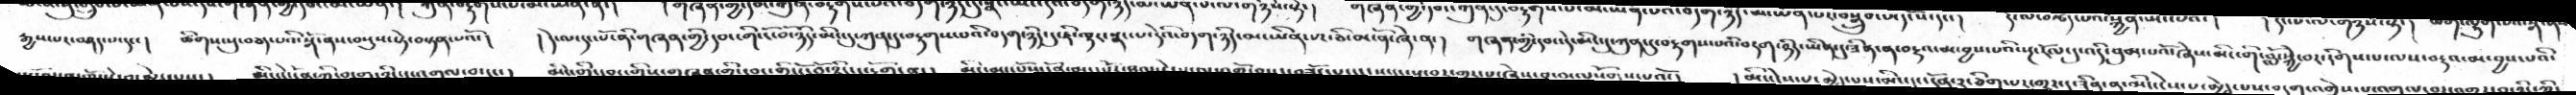རྒྱས་པར་བཤད་པ་དང་།   ཚིགས་སུ་བཅད་པའི་སྒོ་ནས་བསྡུས་སྟེ་བསྟན་པའོ་།   །དེ་ལ་དང་པོ་ནི་གཞན་གྱི་དབང་གི་ངོ་བོ་ཉིད་མིང་དུ་ཀུན་དུ་བརྟགས་པའི་བདག་ཉིད་དུ་ཇི་ལྟར་སྣང་པ་དེའི་བདག་ཉིད་མ་ཡིན་པར་ཅི་མངོན་ཞེ་ན་།   གཞན་གྱི་དབང་དེ་མིང་དུ་ཀུན་དུ་བརྟགས་པའི་བདག་ཉིད་ཡིན་དུ་ཟིན་ན་བརྡའ་མ་བྱས་པའི་སྔ་རོལ་དུ་འདི་བུམ་པའོ་ཞེས་མིང་གི་བློ་སྐྱེ་བར་རིགས་པ་ལས་བརྡའ་མ་བྱས་པའི་
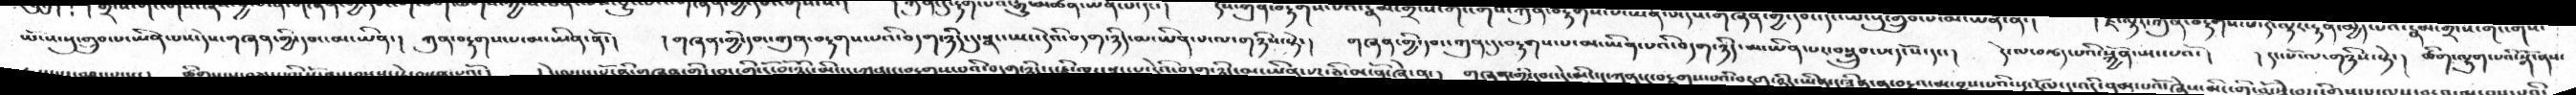ཡོངས་སུ་གྲུབ་པ་ཡིན་པས་དེས་གཞན་གྱི་དབང་མ་ཡིན་།   ཀུན་བརྟགས་པ་མ་ཡིན་ནོ་།    །གཞན་གྱི་དབང་ཀུན་བརྟགས་པའི་བདག་ཉིད་དུ་སྣང་ཡང་དེའི་བདག་ཉིད་མ་ཡིན་པ་ལ་གཉིས་སྟེ་།    གཞན་གྱི་དབང་ཀུན་དུ་བརྟགས་པ་མ་ཡིན་པའི་བདག་ཉིད་མ་ཡིན་པར་བསྒྲུབ་པ་དངོས་དང་།    དེ་ལ་བརྩད་པའི་སྐྱོན་སྤང་པའོ་།   ། དང་པོ་ལ་གཉིས་སྟེ་།   ཚིག་ལྷུག་པའི་སྒོ་ནས་
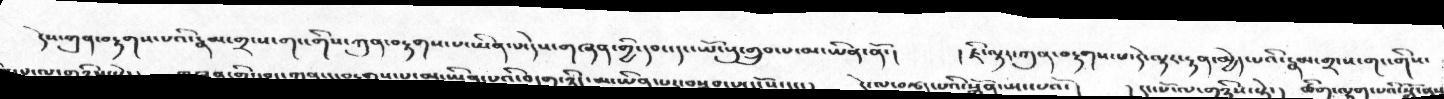དེས་ཀུན་བརྟགས་པའི་རྣམ་གྲངས་གང་གིས་ཀུན་བརྟགས་པ་ཡིན་པ་དེས་གཞན་གྱི་དབང་དང་ཡོངསུ་གྲུབ་པ་མ་ཡིན་ནོ་།     ། ཇི་ལྟར་ཀུན་བརྟགས་པ་དེ་ལྟར་རྟན་མྱེད་པའི་རྣམ་གྲངས་གང་གིས་
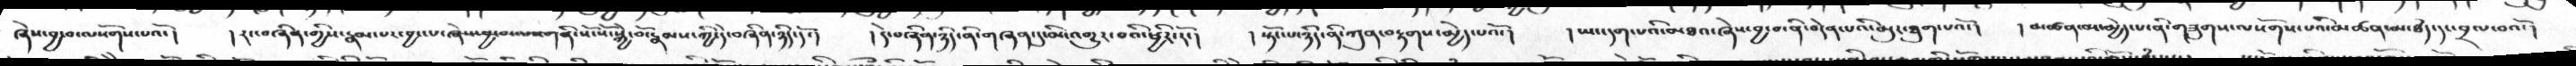ཞེས་བྱ་བ་ལསོགས་པའོ་།   །རང་བཞིན་གྱིས་རྣམ་པར་བྱང་པ་ཞེས་བྱ་བ་ལས་ནི་སོ་སོ་སྐྱེ་བོ་རྣམས་ཀྱི་དེ་བཞིན་ཉིད་དོ་།   །དེ་བཞིན་ཉིད་ནི་གཞན་དུ་མི་འགྱུར་བའི་ཕྱིར་རོ་།   ། སྟོང་པ་ཉིད་ནི་ཀུན་བརྟགས་མྱེད་པའོ་།   ། ཡང་དག་པའི་མཐའ་ཞེས་བྱ་བ་ནི་བདེན་པའི་མུར་ཐུག་པའོ་།   །མཚན་མ་མྱེད་པ་ནི་གཟུགས་ལསོགས་པའི་མཚན་མ་ཐཾད་དང་བྲལ་བའོ་།
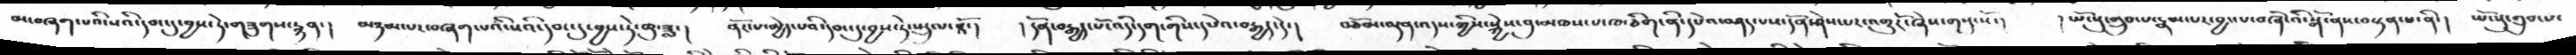མ་བཞག་པའི་སའི་དབང་དུ་བྱས་ཏེ་གཟུགས་རྙན་།   མཉམ་པར་བཞག་པའི་སའི་དབང་དུ་བྱས་ཏེ་ཆུ་ཟླ་།   ནོར་པ་མྱེད་པའི་དབང་དུ་བྱས་ཏེ་སྤྲུལ་ཏོ་།   །དོན་བརྒྱད་པོ་འདི་དག་གིས་དཔེའ་བརྒྱད་དེ་།   བཅོམ་ལྡན་འདས་ཀྱིས་སྐྱེས་བུ་མཁས་པ་ཁ་ཅིག་ནི་དཔེའ་བཤད་པས་དོན་ཤེས་པར་འགྱུརོ་ཞེས་གསུངསོ་།    ། ཡོངསུ་གྲུབ་པ་རྣམ་པར་བྱང་པ་བཞི་འི་སྒོ་ནས་བསྟན་པ་ནི་།   ཡོངསུ་གྲུབ་པ་
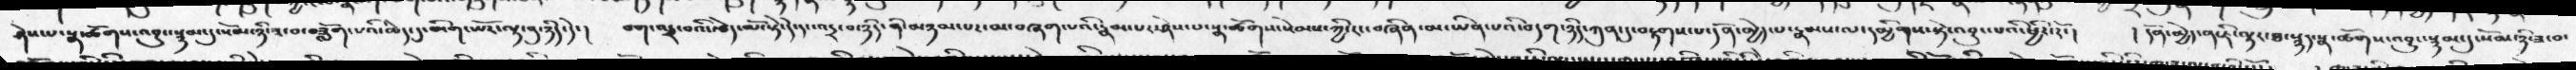ཤེས་པ་སྣ་ཚོགས་འབྱུང་སྙམ་དུ་སོམ་ཉི་ཟ་བ་བཟློག་པའི་ཆེད་དུ་མིག་ཡོར་ལྟ་བུ་ཉིད་དེ་།   བག་འདྲ་བའི་རྩེད་མོ་སྟེ་དེ་དང་འདྲ་བ་ཉིད་ནི་མཉམ་པར་མ་བཞག་པའི་རྣམ་པར་ཤེས་པ་སྣ་ཚོགས་སེམས་ཀྱི་རང་བཞིན་མ་ཡིན་པའི་བདག་ཉིད་ཀུན་དུ་བརྟགས་པ་དོན་མྱེད་པ་རྣམས་ལ་དམྱིགས་སྟེ་འབྱུང་པའི་ཕྱིར་རོ་།   ། དོན་མྱེད་ན་ཇི་ལྟར་ཐ་སྙད་སྣ་ཚོགས་འབྱུང་སྙམ་དུ་སོམ་ཉི་ཟ་བ་
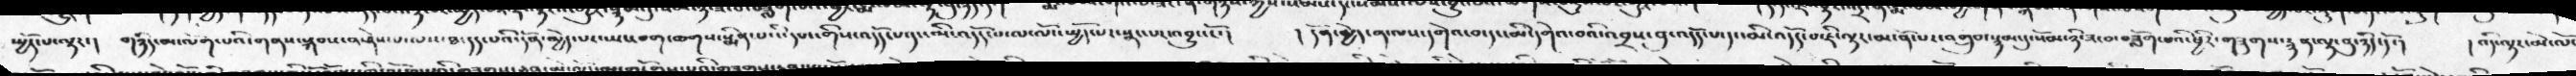སྤྱོད་པ་ལྟར་།  གཉིད་མ་ལོག་པའི་གནས་སྐབས་ན་ཤེས་པ་ལས་ཐ་དད་པའི་དོན་མྱེད་པར་ཡང་བག་ཆགས་སྨིན་པའི་དབང་གིས་འདོད་པ་དང་མི་འདོད་པ་ལ་ལོངས་སྤྱོད་པར་སྣང་པར་འབྱུང་ངོ་།   །དོན་མྱེད་ན་ལས་དགེའ་བ་དང་མི་དགེའ་བའི་འབྲས་བུ་འདོད་པ་དང་མི་འདོད་པ་ཇི་ལྟར་མངོན་པར་འགྲུབ་སྙམ་དུ་སོམ་ཉི་ཟ་བ་བཟློག་པའི་ཕྱིར་གཟུགས་རྙན་ལྟ་བུ་ཉིད་དོ་།   ། འདི་ལྟར་མེ་ལོང
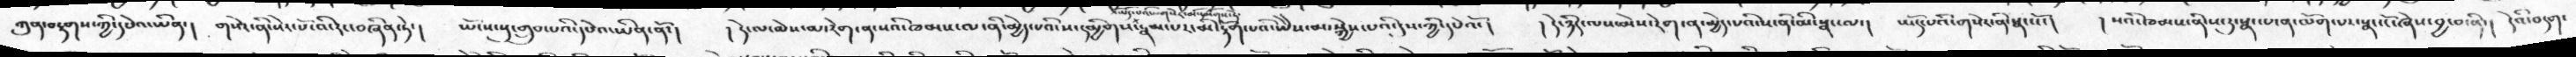ཀུན་བརྟགས་ཀྱི་དཔེའ་ཡིན་།  གསེར་ནི་སེར་པོ་འདི་རང་བཞིན་ཏེ་།  ཡོངས་སུ་གྲུབ་པའི་དཔེའ་ཡིན་ནོ་།   །དེ་ལ་མེས་མ་རེག་ན་སའི་ཁམས་ལ་ནི་མྱེད་པའི་ས་དམྱིགས་ཡོད་པའི་གསེར་མི་དམིགས་ཏེ་རྣམ་པར་མི་རྟོག་པའི་ཡཻས་མ་སྐྱེས་པའི་དུས་ཀྱི་དཔེའོ་།    ། དེ་ཉིད་ལས་མེས་རེག་ན་མྱེད་པའི་ས་ནི་མི་སྣང་ལ་།   ཡོད་པའི་གསེར་ནི་སྣང་ངོ་།   ། སའི་ཁམས་ནི་ས་རུ་སྣང་པ་ན་ལོག་པར་སྣང་ངོ་ཞེས་བྱ་བ་ནི་།   དེའི་བདག་
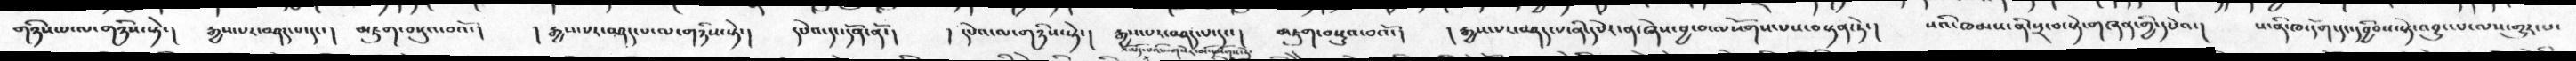གཉིས་པ་ལ་གཉིས་སྟེ་།   རྒྱས་པར་བཤད་པ་དང་།  མཇུག་བསྡུད་བའོ་།  ། རྒྱས་པར་བཤད་པ་ལ་གཉིས་སྟེ་།  དཔེའ་དང་དོན་ནོ་།  །དཔེའ་ལ་གཉིས་ཏེ་།  རྒྱས་པར་བཤད་པ་དང་།   མཇུག་བསྡུས་བའོ་།   ། རྒྱས་པར་བཤད་པ་ནི་དཔེར་ན་ཞེས་བྱ་བ་ལསོགས་པས་བསྟན་ཏེ་།    སའི་ཁམས་ནི་སྲ་བ་སྟེ་གཞན་གྱི་དཔེའ་།   ས་ནི་ཁ་དོག་དང་དབྱིབས་སྟེ་འབྱུང་པ་ལས་གྱུར་པ་
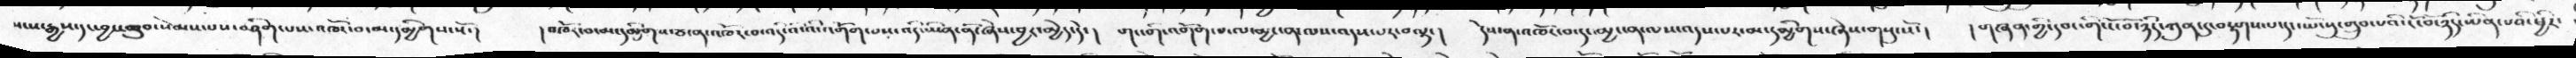སངས་རྒྱས་དང་བྱང་ཆུབ་སེམས་པས་བཤིག་པས་འཁོར་བ་མ་དམྱིགས་སོ་།  །འཁོར་བ་མ་དམྱིགས་ཙ་ན་འཁོར་བ་འདི་འི་འི་འགོག་པས་འདི་ཡིན་ནོ་ཞེས་བྱར་མྱེད་དེ་།   གང་གི་འགོག་པ་ལ་མྱ་ངན་ལས་འདས་པར་བལྟ་།   དེས་ན་འཁོར་བ་དང་མྱ་ངན་ལས་འདས་པར་མ་དམྱིགས་ཞེས་གསུངསོ་།   ། གཞན་གྱི་དབང་གི་ངོ་བོ་ཉིད་ཀུན་དུ་བརྟགས་པ་དང་ཡོངསུ་གྲུབ་པའི་ངོ་བོ་ཉིད་ཡིན་པའི་ཕྱིར་
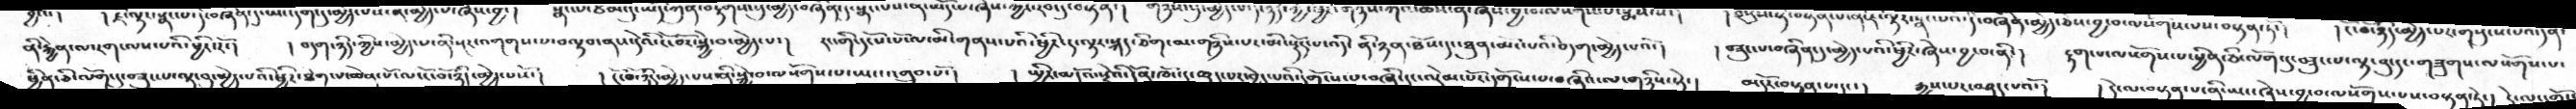ནི་རྐྱེན་ལ་རག་ལས་པའི་ཕྱིར་རོ་།    ། བདག་ཉིད་ཀྱིས་མྱེད་པ་ནི་སྔར་འགགས་པ་བལྟབ་ནས་དེའི་ངོ་བོར་སྐྱེ་བ་མྱེད་པ་།   རང་གི་དངོས་པོ་ལ་མི་གནས་པའི་ཕྱིར་ད་ལྟར་སྐད་ཅིག་མ་གཉིས་པར་མི་སྟོར་པ་འདི་ནི་ཉན་ཐོས་དང་ཐུན་མོང་པའི་བདག་མྱེད་པའོ་།    ། བཟུང་པ་བཞིན་དུ་མྱེད་པའི་ཕྱིར་ཞེས་བྱ་བ་ནི་།    རྟག་པ་ལསོགས་པ་ཕྱིན་ཅི་ལོག་དུ་བཟུང་པ་ལྟ་བུ་དང་གཟུགས་ལསོགས་པ་
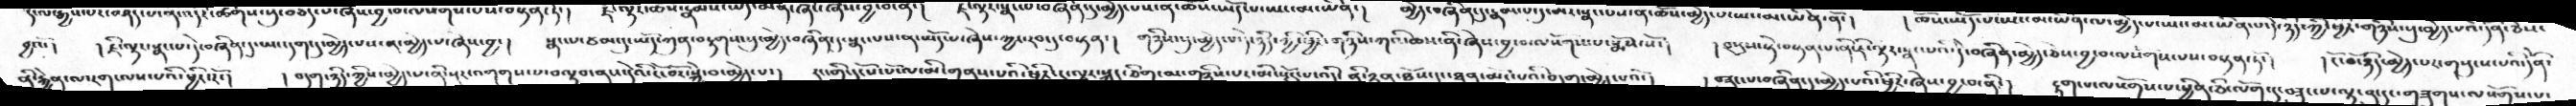བྱའོ་།   ། ཇི་ལྟར་སྣང་པ་དེ་བཞིན་དུ་ཡང་དག་དུ་མྱེད་པས་ན་མྱེད་པ་ཞེས་བྱ་།   སྣང་པ་ཙམ་དུ་ཡོད་ཀུན་བརྟགས་སུ་མྱེད་བཞིན་དུ་སྣང་པས་ན་ཡོད་པ་ཞེས་ཀྱང་རབ་དུ་བསྟན་།   གཉིས་སུ་མྱེད་པ་དེ་ཉིད་ཀྱི་ཕྱིར་གཉིས་ཀའི་ཆས་ནི་ཞེས་བྱ་ལསོགས་པ་སྨོས་སོ་།    །བསུས་སྟེ་བསྟན་པ་ནི་ཇི་ལྟར་སྣང་པའི་དེ་བཞིན་མྱེད་ཅེས་བྱ་བ་ལསོགས་པས་བསྟན་ཏོ་།    །ངོ་བོ་ཉིད་མྱེད་པར་གསུངས་པའི་དོན་
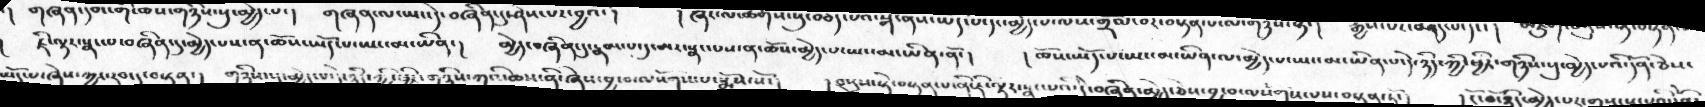།  ཇི་ལྟར་སྣང་པ་བཞིན་དུ་མྱེད་པས་ན་ཆོས་ཡོད་པ་ཡང་མ་ཡིན་།    མྱེད་བཞིན་དུ་རྣམ་པ་དུ་མར་སྣང་པས་ན་ཆོས་མེད་པ་ཡང་མ་ཡིན་ནོ་།    །ཆོས་ཡོད་པ་ཡང་མ་ཡིན་ལ་མྱེད་པ་ཡང་མ་ཡིན་པ་དེ་ཉིད་ཀྱི་ཕྱིར་གཉིས་སུ་མྱེད་པའི་དོན་ཅེས་
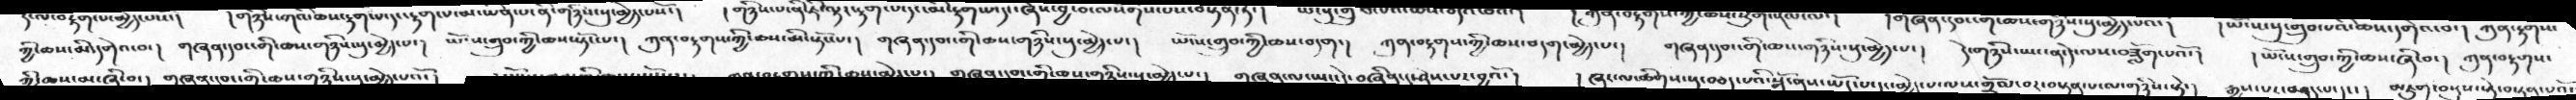ཀྱི་ཆས་མི་དགེའ་བ་།   གཞན་དབང་གི་ཆས་གཉིས་སུ་མྱེད་པ་།  ཡོངས་གྲུབ་ཀྱི་ཆས་སྟོང་པ་།   ཀུན་བརྟགས་ཀྱི་ཆས་མི་སྟོང་པ་།   གཞན་དབང་གི་ཆས་གཉིས་སུ་མྱེད་པ་།   ཡོངས་གྲུབ་ཀྱི་ཆས་བདག་།   ཀུན་བརྟགས་ཀྱི་ཆས་བདག་མྱེད་པ་།   གཞན་དབང་གི་ཆས་གཉིས་སུ་མྱེད་པ་།   དེ་གཉིས་ཡང་ན་དེ་ལས་བཟློག་པའོ་།    །ཡོངས་གྲུབ་ཀྱི་ཆས་ཞི་བ་།   ཀུན་བརྟགས་
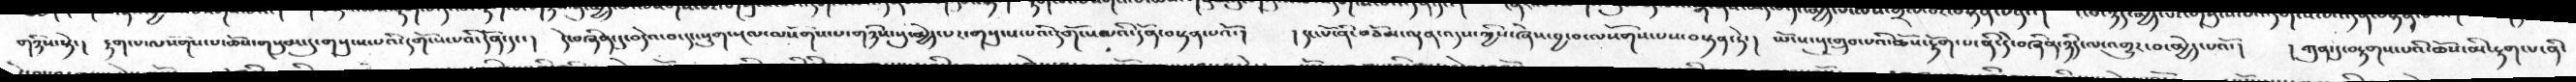གཉིས་སྟེ་།   རྟག་པ་ལསོགས་པ་ཆོས་གསུམ་དུ་གསུངས་པའི་དགོས་པའི་དོན་དང་།   དེ་བཞིན་དུ་བདེའ་བ་དང་སྡུག་སྔལ་ལསོགས་པ་གཉིས་སུ་མྱེད་པར་གསུངས་པའི་དགོངས་པའི་དོན་བསྟན་པའོ་།    ། དང་པོ་ནི་བཅོམ་ལྡན་འདས་ཀྱིས་ཞེས་བྱ་བ་ལསོགས་པས་བསྟན་ཏེ་།   ཡོངས་སུ་གྲུབ་པའི་ཆོས་རྟོག་པ་ནི་དེ་བཞིན་ཉིད་ལ་འགྱུར་བ་མྱེད་པའོ་།    ། ཀུན་དུ་བརྟགས་པའི་ཆོས་མི་རྟག་པ་ནི་
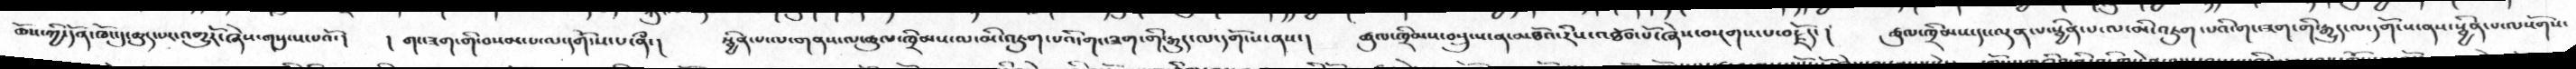ཆོས་ཀྱི་དོན་ཁོང་དུ་ཆུད་པར་འགྱུརོ་ཞེས་གསུངས་པའོ་།  །གང་ཟག་གི་བསམ་པ་ལ་དགོངས་པ་ནི་།  སྦྱིན་པ་ལ་གནས་ལ་ཚུལ་ཁྲིམས་ལ་མི་འཇུག་པའི་གང་ཟག་གི་རྒྱུད་ལ་དགོངས་ནས་།   ཚུལ་ཁྲིམས་བསྲུངས་ན་མཐོའ་རིས་འཐོབ་པོ་ཞེས་བསྔགས་པ་བརྗོད་།    ཚུལ་ཁྲིམས་དང་ལྡན་པ་སྦྱིན་པ་ལ་མི་འཇུག་པའི་གང་ཟག་གི་རྒྱུད་ལ་དགོངས་ནས་སྦྱིན་པ་ལསོགས་
